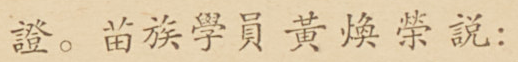證。苗族學員黃煥榮說：
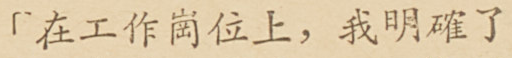「在工作崗位上，我明確了
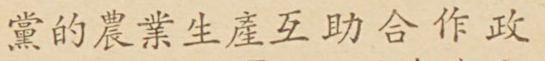黨的農業生產互助合作政
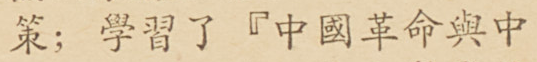策；學習了『中國革命與中
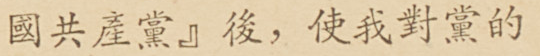國共產黨』後，是我對黨的
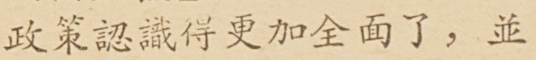政策認識得更加全面了，並
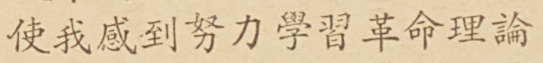使我感到努力學習革命理論
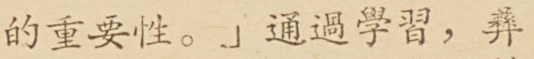的重要性。」通過學習，彝
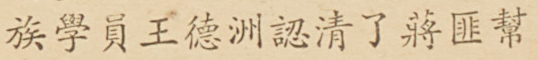族學員王德洲認清了將匪幫
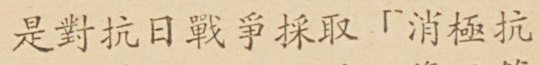是對抗日戰爭採取「消極抗
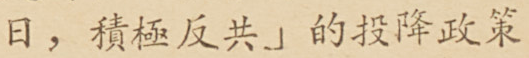日，積極反共」的投降政策
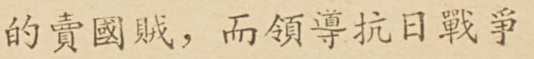的賣國賊，而領導抗日戰爭
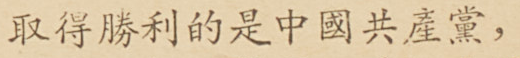取得勝利的是中國共產黨，
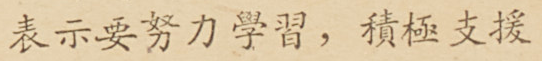表示要努力學習，積極支援
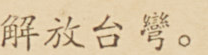解放台灣。
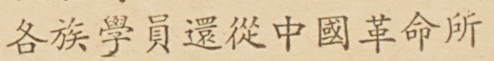各族學員還從中國革命所
